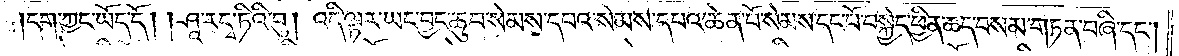དག་ཀྱང་ཡོད་དོ། །ཤཱ་རདྭ་ཏིའི་བུ། འདི་ལྟར་ཡང་བྱང་ཆུབ་སེམས་དཔའ་སེམས་དཔའ་ཆེན་པོ་སེམས་དང་པོ་བསྐྱེད་ཕྱིན་ཆད་བསམ་གཏན་བཞི་དང༌།
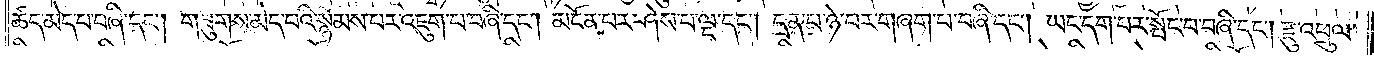ཚད་མེད་པ་བཞི་དང༌། གཟུགས་མེད་བའི་སྙོམས་པར་འཇུག་པ་བཞི་དང༌། མངོན་པར་ཤེས་པ་ལྔ་དང༌། དྲན་པ་ཉེ་བར་གཞག་པ་བཞི་དང༌། ཡང་དག་པར་སྤོང་བ་བཞི་དང༌། རྫུ་འཕྲུལ་
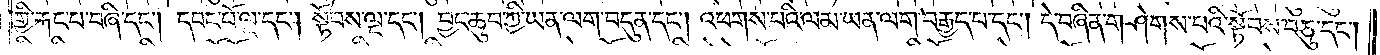གྱི་རྐང་པ་བཞི་དང༌། དབང་པོ་ལྔ་དང༌། སྟོབས་ལྔ་དང༌། བྱང་ཆུབ་ཀྱི་ཡན་ལག་བདུན་དང༌། འཕགས་པའི་ལམ་ཡན་ལག་བརྒྱད་པ་དང༌། དེ་བཞིན་གཤེགས་པའི་སྟོབས་བཅུ་དང༌།
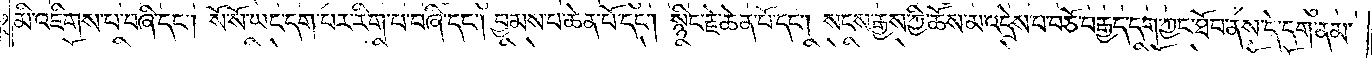མི་འཇིགས་པ་བཞི་དང༌། སོ་སོ་ཡང་དག་པར་རིག་པ་བཞི་དང༌། བྱམས་པ་ཆེན་པོ་དང༌། སྙིང་རྗེ་ཆེན་པོ་དང༌། སངས་རྒྱས་ཀྱི་ཆོས་མ་འདྲེས་པ་བཅོ་བརྒྱད་དག་ཀྱང་ཐོབ་ནས་དེ་དག་ནམ་
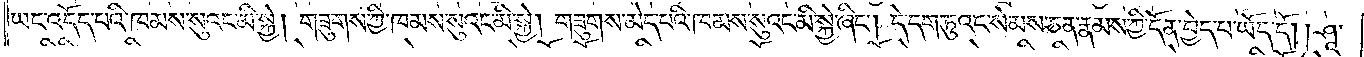ཡང་འདོད་པའི་ཁམས་སུའང་མི་སྐྱེ། གཟུགས་ཀྱི་ཁམས་སུའང་མི་སྐྱེ། གཟུགས་མེད་པའི་ཁམས་སུའང་མི་སྐྱེ་ཞིང༌། དེ་དག་ཏུའང་སེམས་ཅན་རྣམས་ཀྱི་དོན་བྱེད་པ་ཡོད་དོ། །ཤཱ་
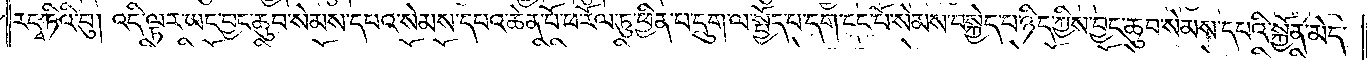རདྭ་ཏིའི་བུ། འདི་ལྟར་ཡང་བྱང་ཆུབ་སེམས་དཔའ་སེམས་དཔའ་ཆེན་པོ་ཕ་རོལ་ཏུ་ཕྱིན་པ་དྲུག་ལ་སྤྱོད་པ་དག་དང་པོ་སེམས་བསྐྱེད་པ་ཉིད་ཀྱིས་བྱང་ཆུབ་སེམས་དཔའི་སྐྱོན་མེད་
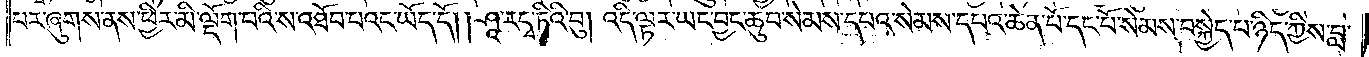པར་ཞུགས་ནས་ཕྱིར་མི་ལྡོག་པའི་ས་འཐོབ་པའང་ཡོད་དོ། །ཤཱ་ར་དྭ་ཏིའི་བུ། འདི་ལྟར་ཡང་བྱང་ཆུབ་སེམས་དཔའ་སེམས་དཔའ་ཆེན་པོ་དང་པོ་སེམས་བསྐྱེད་པ་ཉིད་ཀྱིས་བླ་
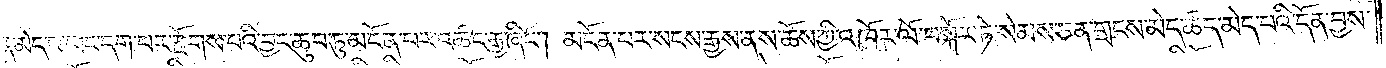ན་མེད་པ་ཡང་དག་པར་རྫོགས་པའི་བྱང་ཆུབ་ཏུ་མངོན་པར་འཚང་རྒྱ་ཞིང༌། མངོན་པར་སངས་རྒྱས་ནས་ཆོས་ཀྱི་འཁོར་ལོ་བསྐོར་ཏེ་སེམས་ཅན་གྲངས་མེད་ཚད་མེད་པའི་དོན་བྱས་
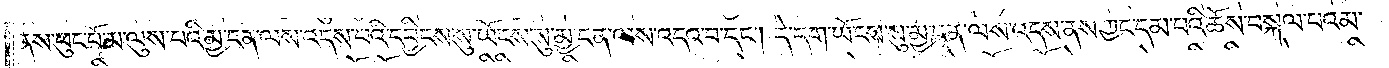ནས་ཕུང་པོ་མ་ལུས་པའི་མྱ་ངན་ལས་འདས་པའི་དབྱིངས་སུ་ཡོངས་སུ་མྱ་ངན་ལས་འདའ་བ་དང༌། དེ་དག་ཡོངས་སུ་མྱ་ངན་ལས་འདས་ནས་ཀྱང་དམ་པའི་ཆོས་བསྐལ་པའམ་
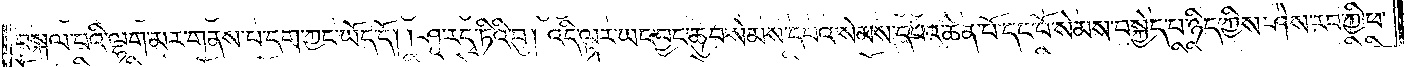བསྐལ་པའི་ལྷག་མར་གནས་པ་དག་ཀྱང་ཡོད་དོ། །ཤཱ་ར་དྭ་ཏིའི་བུ། འདི་ལྟར་ཡང་བྱང་ཆུབ་སེམས་དཔའ་སེམས་དཔའ་ཆེན་པོ་དང་པོ་སེམས་བསྐྱེད་པ་ཉིད་ཀྱིས་ཤེས་རབ་ཀྱི་ཕ་
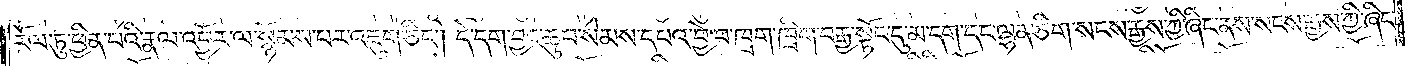རོལ་ཏུ་ཕྱིན་པའི་རྣལ་འབྱོར་ལ་སྙོམས་པར་འཇུག་ཅིང༌། དེ་དག་བྱང་ཆུབ་སེམས་དཔའ་བྱེ་བ་ཁྲག་ཁྲིག་བརྒྱ་སྟོང་དུ་མ་དག་དང་ལྷན་ཅིག་སངས་རྒྱས་ཀྱི་ཞིང་ནས་སངས་རྒྱས་ཀྱི་ཞིང་
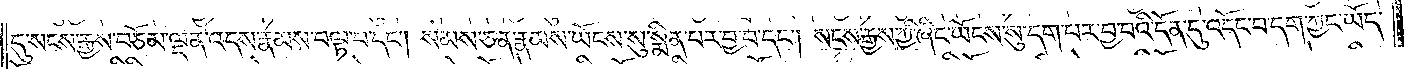དུ་སངས་རྒྱས་བཅོམ་ལྡན་འདས་རྣམས་བལྟ་བ་དང༌། སེམས་ཅན་རྣམས་ཡོངས་སུ་སྨིན་པར་བྱ་བ་དང༌། སངས་རྒྱས་ཀྱི་ཞིང་ཡོངས་སུ་དག་པར་བྱ་བའི་དོན་དུ་འདོང་བ་དག་ཀྱང་ཡོད་
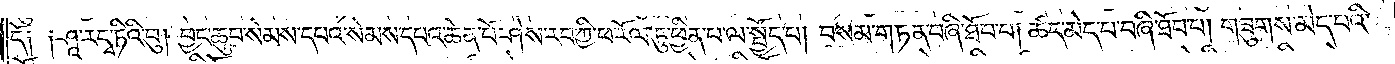དོ༑ ༑ཤཱ་ར་དྭ་ཏིའི་བུ། བྱང་ཆུབ་སེམས་དཔའ་སེམས་དཔའ་ཆེན་པོ་ཤེས་རབ་ཀྱི་ཕ་རོལ་ཏུ་ཕྱིན་པ་ལ་སྤྱོད་པ། བསམ་གཏན་བཞི་ཐོབ་པ། ཚད་མེད་པ་བཞི་ཐོབ་པ། གཟུགས་མེད་པའི་
